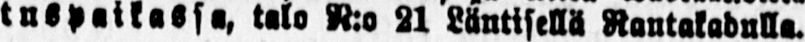tuspaikassa, talo N:o 21 Läntisillä Rantakadulla
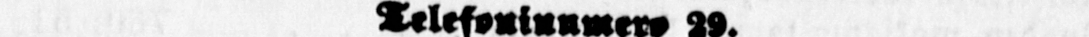Telefoninumero 29
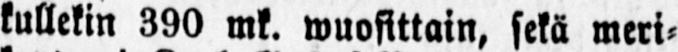kullekin 390 mk. wuosittain, sekä meri-
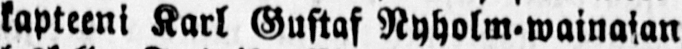kapteeni Karl Gustaf Nyholm-wainaian
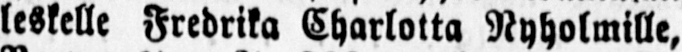leskelle Fredrika Charlotta Nyholmille,
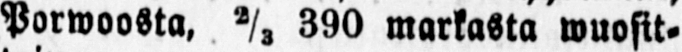Porwoosta,2/3 390 markasta wuosit-
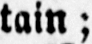tain;
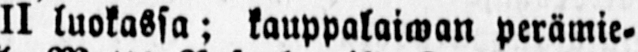II luokassa; kauppalaiwan perämie-
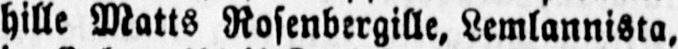hille Matts Rosenbergille, Lemlannista,
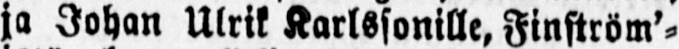ja Johan Ulrik Karlssonille, Finström'-
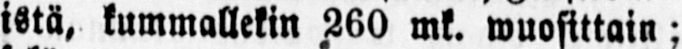istä, kummallekin 260 mk. wuosittain;
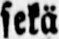sekä
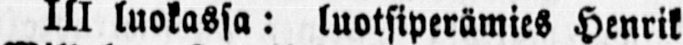III luokassa: luotsiperämies Henrik
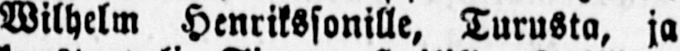Wilhelm Henrikssonille, Turusta, ja
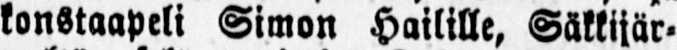konstaapeli Simon Hailille, Säkkijär-
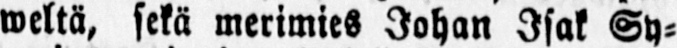weltä, sekä merimies Johan Isak Sy-
